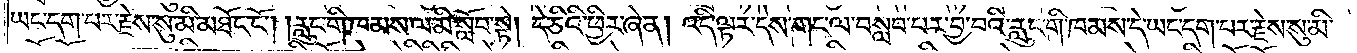ཡང་དག་པར་རྗེས་སུ་མི་མཐོང་ངོ༌། །རླུང་གི་ཁམས་ལ་མི་སློབ་སྟེ། དེ་ཅིའི་ཕྱིར་ཞེ་ན། འདི་ལྟར་དེས་གང་ལ་བསླབ་པར་བྱ་བའི་རླུང་གི་ཁམས་དེ་ཡང་དག་པར་རྗེས་སུ་མི་
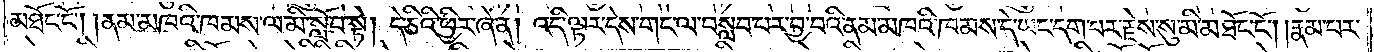མཐོང་ངོ༌། །ནམ་མཁའི་ཁམས་ལ་མི་སློབ་སྟེ། དེ་ཅིའི་ཕྱིར་ཞེ་ན། འདི་ལྟར་དེས་གང་ལ་བསླབ་པར་བྱ་བའི་ནམ་མཁའི་ཁམས་དེ་ཡང་དག་པར་རྗེས་སུ་མི་མཐོང་ངོ༌། །རྣམ་པར་
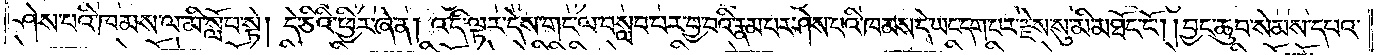ཤེས་པའི་ཁམས་ལ་མི་སློབ་སྟེ། དེ་ཅིའི་ཕྱིར་ཞེ་ན། འདི་ལྟར་དེས་གང་ལ་བསླབ་པར་བྱ་བའི་རྣམ་པར་ཤེས་པའི་ཁམས་དེ་ཡང་དག་པར་རྗེས་སུ་མི་མཐོང་ངོ༌། །བྱང་ཆུབ་སེམས་དཔའ་
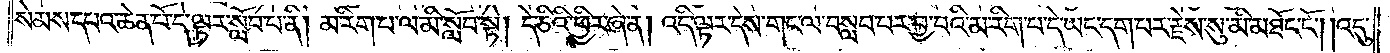སེམས་དཔའ་ཆེན་པོ་དེ་ལྟར་སློབ་པ་ནི། མ་རིག་པ་ལ་མི་སློབ་སྟེ། དེ་ཅིའི་ཕྱིར་ཞེ་ན། འདི་ལྟར་དེས་གང་ལ་བསླབ་པར་བྱ་བའི་མ་རིག་པ་དེ་ཡང་དག་པར་རྗེས་སུ་མི་མཐོང་ངོ༌། །འདུ་
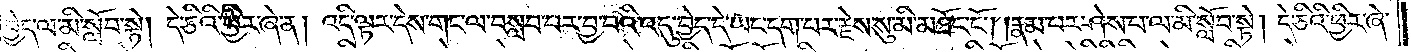བྱེད་ལ་མི་སློབ་སྟེ། དེ་ཅིའི་ཕྱིར་ཞེ་ན། འདི་ལྟར་དེས་གང་ལ་བསླབ་པར་བྱ་བའི་འདུ་བྱེད་དེ་ཡང་དག་པར་རྗེས་སུ་མི་མཐོང་ངོ༌། །རྣམ་པར་ཤེས་པ་ལ་མི་སློབ་སྟེ། དེ་ཅིའི་ཕྱིར་ཞེ་
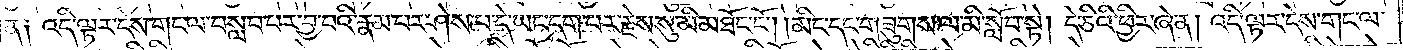ན༑ འདི་ལྟར་དེས་གང་ལ་བསླབ་པར་བྱ་བའི་རྣམ་པར་ཤེས་པ་དེ་ཡང་དག་པར་རྗེས་སུ་མི་མཐོང་ངོ༌། །མིང་དང་གཟུགས་ལ་མི་སློབ་སྟེ། དེ་ཅིའི་ཕྱིར་ཞེ་ན། འདི་ལྟར་དེས་གང་ལ་
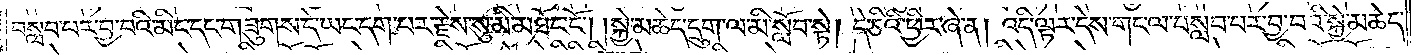བསླབ་པར་བྱ་བའི་མིང་དང་གཟུགས་དེ་ཡང་དག་པར་རྗེས་སུ་མི་མཐོང་ངོ༌། །སྐྱེ་མཆེད་དྲུག་ལ་མི་སློབ་སྟེ། དེ་ཅིའི་ཕྱིར་ཞེ་ན། འདི་ལྟར་དེས་གང་ལ་བསླབ་པར་བྱ་བའི་སྐྱེ་མཆེད་
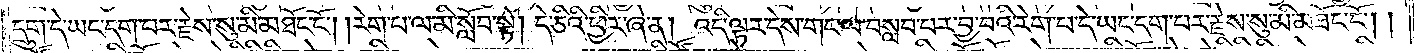དྲུག་དེ་ཡང་དག་པར་རྗེས་སུ་མི་མཐོང་ངོ༌། །རིག་པ་ལ་མི་སློབ་སྟེ། དེ་ཅིའི་ཕྱིར་ཞེ་ན། འདི་ལྟར་དེས་གང་ལ་བསླབ་པར་བྱ་བའི་རེག་པ་དེ་ཡང་དག་པར་རྗེས་སུ་མི་མཐོང་ངོ༌། །
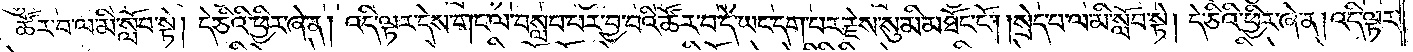ཚོར་བ་ལ་མི་སློབ་སྟེ། དེ་ཅིའི་ཕྱིར་ཞེ་ན། འདི་ལྟར་དེས་གང་ལ་བསླབ་པར་བྱ་བའི་ཚོར་བ་དེ་ཡང་དག་པར་རྗེས་སུ་མི་མཐོང་ངོ༌། །སྲེད་པ་ལ་མི་སློབ་སྟེ། དེ་ཅིའི་ཕྱིར་ཞེ་ན། འདི་ལྟར་
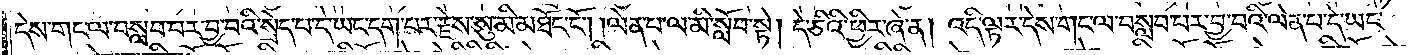དེས་གང་ལ་བསླབ་པར་བྱ་བའི་སྲེད་པ་དེ་ཡང་དག་པར་རྗེས་སུ་མི་མཐོང་ངོ༌། །ལེན་པ་ལ་མི་སློབ་སྟེ། དེ་ཅིའི་ཕྱིར་ཞེ་ན། འདི་ལྟར་དེས་གང་ལ་བསླབ་པར་བྱ་བའི་ལེན་པ་དེ་ཡང་
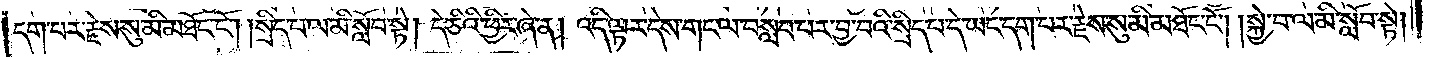དག་པར་རྗེས་སུ་མི་མཐོང་ངོ༌། །སྲིད་པ་ལ་མི་སློབ་སྟེ། དེ་ཅིའི་ཕྱིར་ཞེ་ན། འདི་ལྟར་དེས་གང་ལ་བསླབ་པར་བྱ་བའི་སྲིད་པ་དེ་ཡང་དག་པར་རྗེས་སུ་མི་མཐོང་ངོ༌། །སྐྱེ་བ་ལ་མི་སློབ་སྟེ།
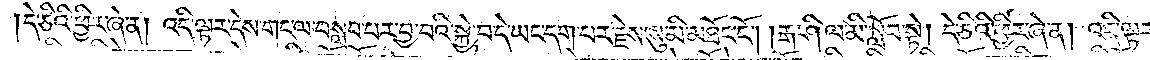དེ་ཅིའི་ཕྱིར་ཞེ་ན། འདི་ལྟར་དེས་གང་ལ་བསླབ་པར་བྱ་བའི་སྐྱེ་བ་དེ་ཡང་དག་པར་རྗེས་སུ་མི་མཐོང་ངོ༌། །རྒ་ཤི་ལ་མི་སློབ་སྟེ། དེ་ཅིའི་ཕྱིར་ཞེ་ན། འདི་ལྟར་
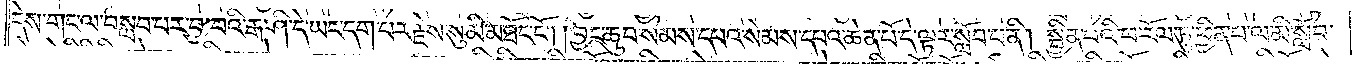དེས་གང་ལ་བསླབ་པར་བྱ་བའི་རྒ་ཤི་དེ་ཡང་དག་པར་རྗེས་སུ་མི་མཐོང་ངོ༌། །བྱང་ཆུབ་སེམས་དཔའ་སེམས་དཔའ་ཆེན་པོ་དེ་ལྟར་སློབ་པ་ནི། སྦྱིན་པའི་ཕ་རོལ་ཏུ་ཕྱིན་པ་ལ་མི་སློབ་
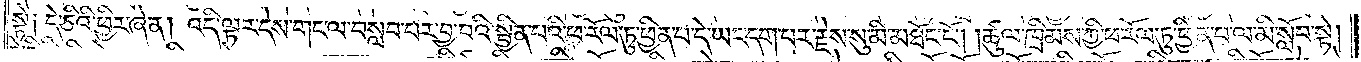སྟེ༑ དེ་ཅིའི་ཕྱིར་ཞེ་ན། འདི་ལྟར་དེས་གང་ལ་བསླབ་པར་བྱ་བའི་སྦྱིན་པའི་ཕ་རོལ་ཏུ་ཕྱིན་པ་དེ་ཡང་དག་པར་རྗེས་སུ་མི་མཐོང་ངོ༌། །ཚུལ་ཁྲིམས་ཀྱི་ཕ་རོལ་ཏུ་ཕྱིན་པ་ལ་མི་སློབ་སྟེ།
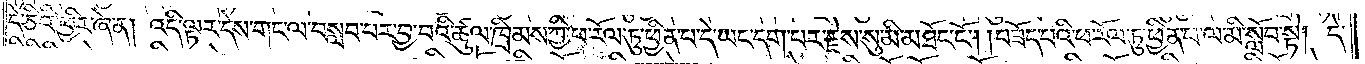དེ་ཅིའི་ཕྱིར་ཞེ་ན། འདི་ལྟར་དེས་གང་ལ་བསླབ་པར་བྱ་བའི་ཚུལ་ཁྲིམས་ཀྱི་ཕ་རོལ་ཏུ་ཕྱིན་པ་དེ་ཡང་དག་པར་རྗེས་སུ་མི་མཐོང་ངོ༌། །བཟོད་པའི་ཕ་རོལ་ཏུ་ཕྱིན་པ་ལ་མི་སློབ་སྟེ། དེ་
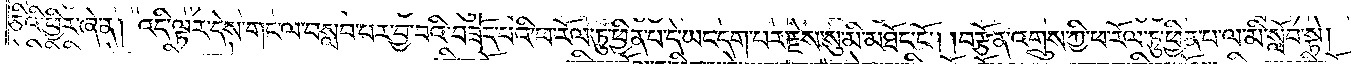ཅིའི་ཕྱིར་ཞེ་ན། འདི་ལྟར་དེས་གང་ལ་བསླབ་པར་བྱ་བའི་བཟོད་པའི་ཕ་རོལ་ཏུ་ཕྱིན་པ་དེ་ཡང་དག་པར་རྗེས་སུ་མི་མཐོང་ངོ༌། །བརྩོན་འགྲུས་ཀྱི་ཕ་རོལ་ཏུ་ཕྱིན་པ་ལ་མི་སློབ་སྟེ།
